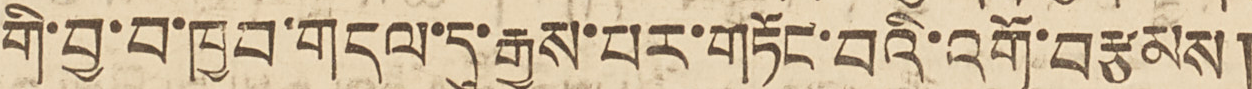གི་བྱ་བ་ཁྱབ་གདལ་དུ་རྒྱས་པར་གཏོང་བའི་འགོ་བརྩམས།
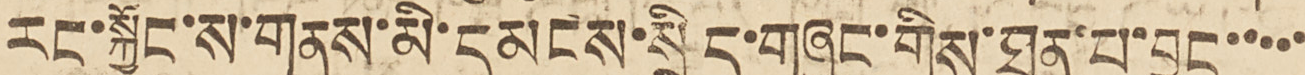རང་སྐྱོང་ས་གནས་མི་དམངས་སྲིད་གཞུང་གིས་ཐན་པ་བྱུང་་་་་
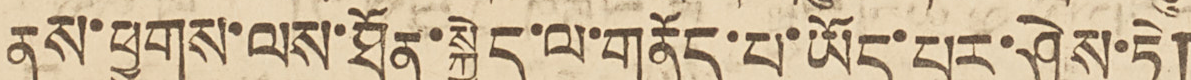ནས་ཕྱུགས་ལས་ཐོན་སྐྱེད་ལ་གནོད་པ་ཡོད་པར་ཤེས་ཏེ།
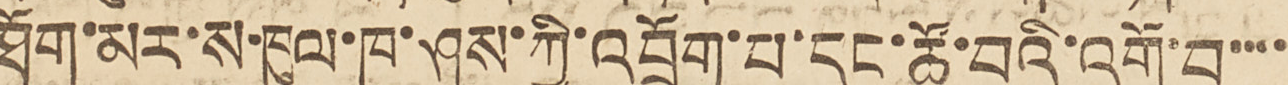ཐོག་མར་ས་ཁུལ་ཁ་ཤས་ཀྱི་འབྲོག་པ་དང་ཚོ་བའི་འགོ་བ་་་་
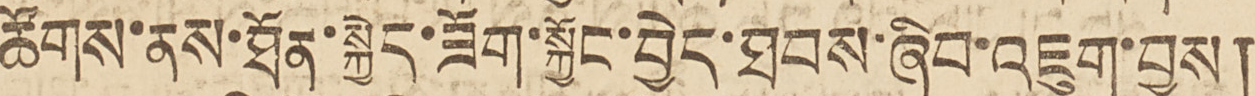ཚོགས་ནས་ཐོན་སྐྱེད་ཟོག་སྐྱོང་བྱེད་ཐབས་ཞིབ་འཇུག་བྱས།
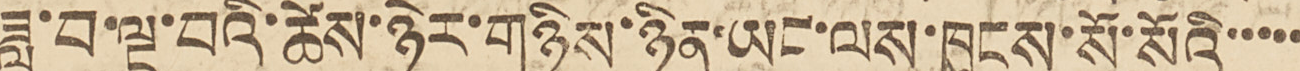ཟླ་བ་ལྔ་བའི་ཚེས་ཉེར་གཉིས་ཉིན་ཡང་ལས་ཁུངས་སོ་སོའི་་་་་
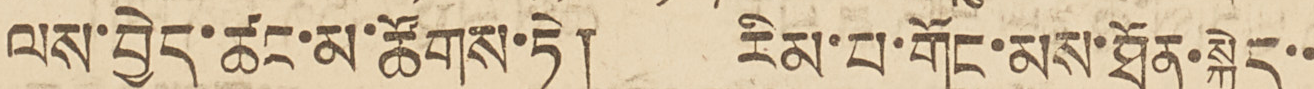ལས་བྱེད་ཚང་མ་ཚོགས་ཏེ། རིམ་པ་གོང་མས་ཐོན་སྐྱེད་་
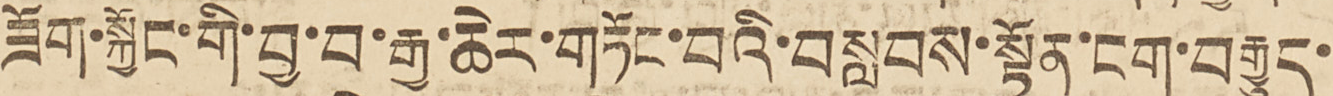ཟོག་སྐྱོང་གི་བྱ་བ་རྒྱ་ཆེར་གཏོང་བའི་བསླབས་སྟོན་ངག་བརྒྱུད་
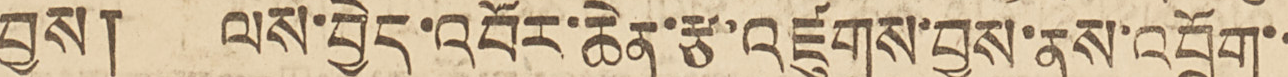བྱས། ལས་བྱེད་འབོར་ཆེན་རྩ་འཛུགས་བྱས་ནས་འབྲོག་་
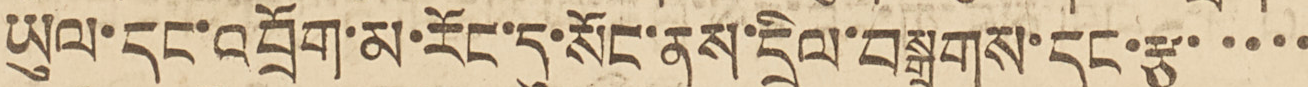ཡུལ་དང་འབྲོག་མ་རོང་དུ་སོང་ནས་དྲིལ་བསྒྲགས་དང་རྩ་་་་་
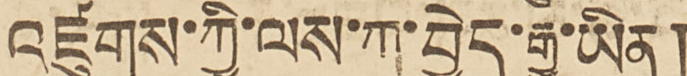འཛུགས་ཀྱི་ལས་ཀ་བྱེད་རྒྱུ་ཡིན།
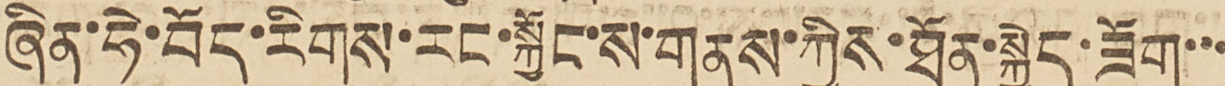ཞིན་ཧེ་བོད་རིགས་རང་སྐྱོང་ས་གནས་ཀྱིས་ཐོན་སྐྱེད་ཟོག་་་
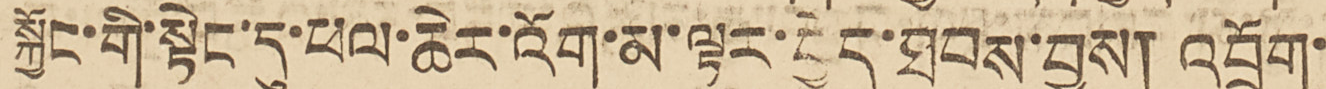སྐྱོང་གི་སྟེང་དུ་ཕལ་ཆེར་འོག་མ་ལྟར་བྱེད་ཐབས་བྱས། འབྲོག་
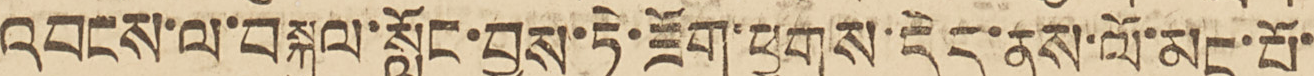འབངས་ལ་བསྐུལ་སློང་བྱས་ཏེ་ཟོག་ཕྱུགས་དེད་ནས་ལོ་མང་པོ་
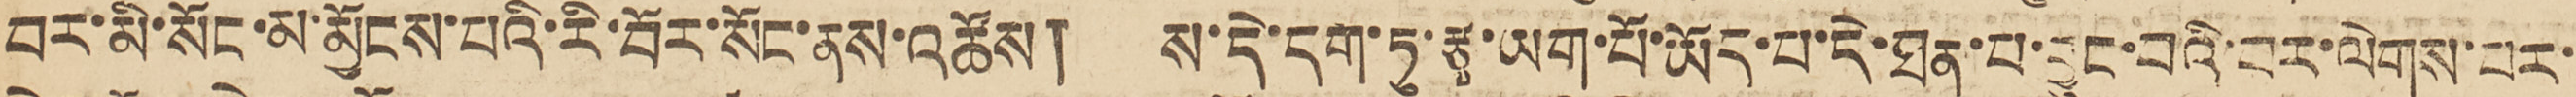བར་མི་སོང་མ་མྱོངས་པའི་རི་བོར་སོང་ནས་འཚོས། ས་དེ་དག་ཏུ་རྩྭ་ཡག་པོ་ཡོད་པ་དེ་ཐན་པ་བྱུང་བའི་བར་ལེགས་པར་
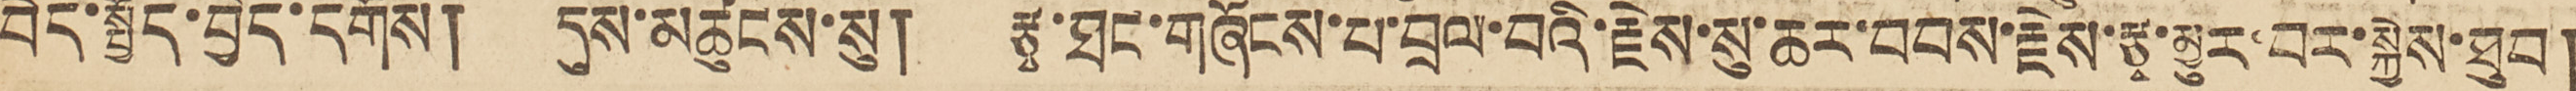བེད་སྤྱོད་བྱེད་དགོས། དུས་མཚུངས་སུ། རྩྭ་ཐང་གཞོངས་པ་བྲལ་བའི་རྗེས་སུ་ཆར་བབས་རྗེས་རྩྭ་མྱུར་བར་སྐྱེས་ཐུབ།
